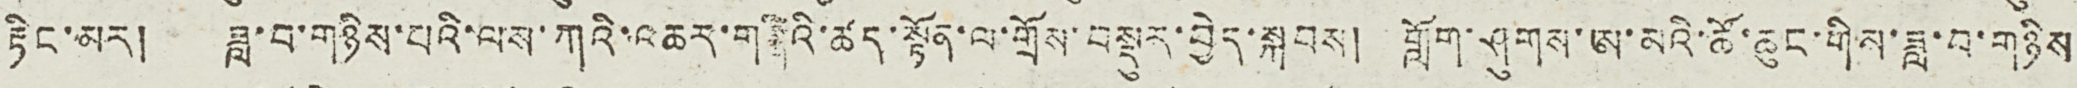རྟིང་མར། ཟླ་བ་གཉིས་པའི་ལས་ཀའི་འཆར་གཤིའི་ཚད་སྟོན་ལ་གྲོས་བསྡུར་བྱེད་སྐབས། གློག་ཤུགས་ཨ་མའི་ཚོ་ཆུང་གིས་ཟླ་བ་གཉིས
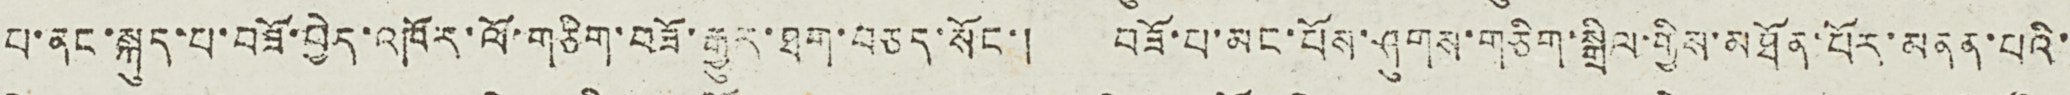པ་ནང་སྐུད་པ་བཟོ་བྱེད་འཁོར་ལོ་གཅིག་བཟོ་རྒྱུར་ཐག་བཅད་སོང་། བཟོ་པ་མང་པོས་ཤུགས་གཅིག་སྒྲིལ་གྱིས་མཐོན་པོར་མནན་པའི་
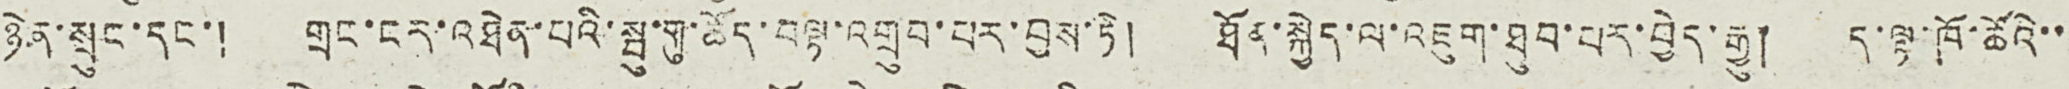ཉེན་སྲུང་དང་། གྲང་ངར་འཐེན་པའི་སྤུ་གུ་ཚོད་བལྟ་འགྲུབ་པར་བྱས་ཏེ། ཐོན་སྐྱེད་ལ་འཇུག་ཐུབ་པར་བྱེད་རྒྱུ། ད་ལྟ་ཁོ་ཚོའི་་
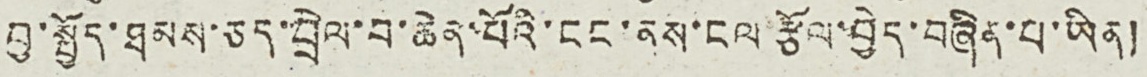བྱ་སྤྱོད་ཐམས་ཅད་བྲེལ་བ་ཆེན་པོའི་ངང་ནས་ངལ་རྩོལ་བྱེད་བཞིན་པ་ཡིན།
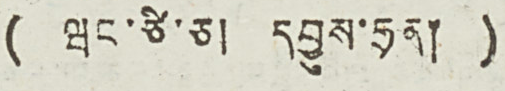( ཝང་ཙི་ཅ། དབྱུས་ཧྲན། )
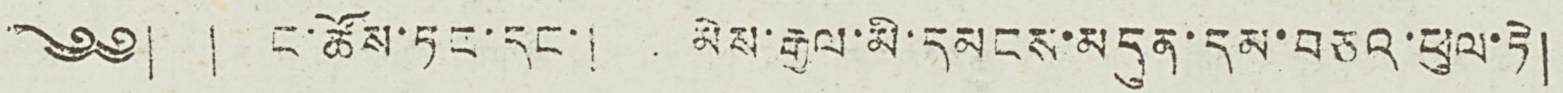༄༅། ། ང་ཚོས་ཏང་དང་། མེས་རྒྱལ་མི་དམངས་མདུན་དམ་བཅའ་ཕུལ་ཏེ།
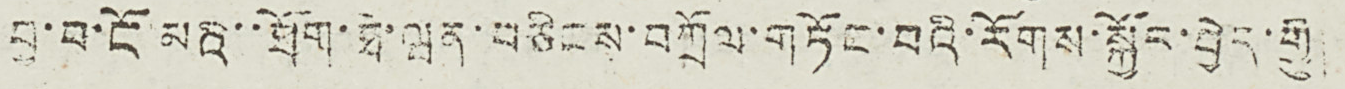བུ་བ་ངོ་མའི་་ཐོག་ཐེ་ཝན་བཅིངས་བཀྲོལ་གཏོང་བའི་རོགས་སྐྱོང་བྱེད་རྒྱུ།
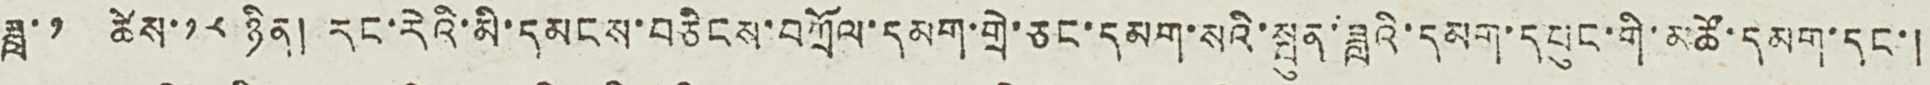ཟླ་ ༡ ཚེས་ ༡༨ ཉིན། རང་རེའི་མི་དམངས་བཅིངས་བཀྲོལ་དམག་གྲེ་ཅང་དམག་སའི་སྤུན་ཟླའི་དམག་དཔུང་གི་མཚོ་དམག་དང་།
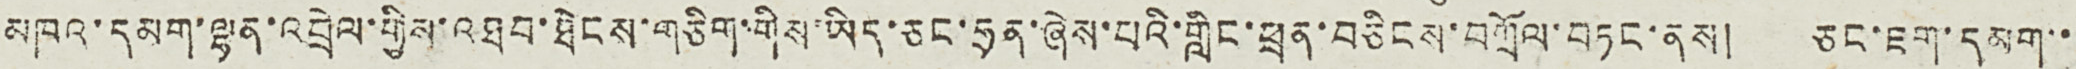མཁའ་དམག་ལྷན་འབྲེལ་གྱིས་འཐབ་ཐེངས་གཅིག་གིས་ཡིད་ཅང་ཧྲན་ཞེས་པའི་གླིང་ཕྲན་བཅིངས་བཀྲོལ་བཏང་ནས། ཅང་ཇག་དམག་་
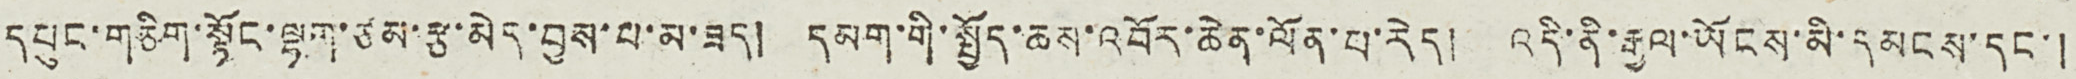དཔུང་གཅིག་སྟོང་ལྷག་ཙམ་རྩ་མེད་བྱས་པ་མ་ཟད། དམག་གི་སྤྱོད་ཆས་འབོར་ཆེན་ལོན་པ་རེད། འདི་ནི་རྒྱལ་ཡོངས་མི་དམངས་དང་།
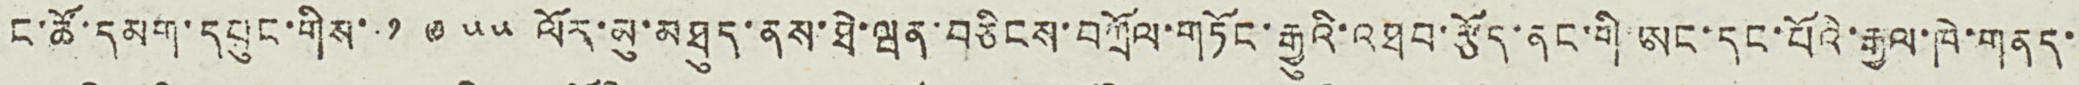ང་ཚོ་དམག་དཔུང་གིས་ ༡ ༩ ༥ ༥ ལོར་མུ་མཐུད་ནས་ཐེ་ཝན་བཅིངས་བཀྲོལ་གཏོང་རྒྱུའི་འཐབ་རྩོད་ནང་གི་ཨང་དང་པོའི་རྒྱལ་ཁེ་གནད་
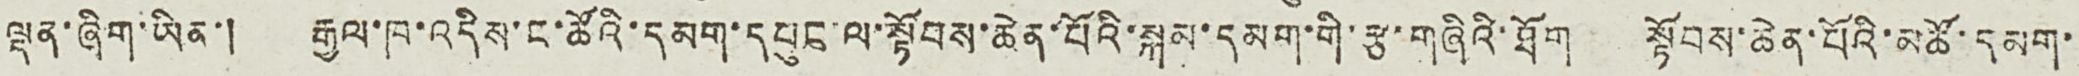ལྡན་ཞིག་ཡིན་། རྒྱལ་ཁ་འདིས་ང་ཚོའི་དམག་དཔུང་ལ་སྟོབས་ཆེན་པོའི་སྐམ་དམག་གི་རྩ་གཞིའི་ཐོག སྟོབས་ཆེན་པོའི་མཚོ་དམག་
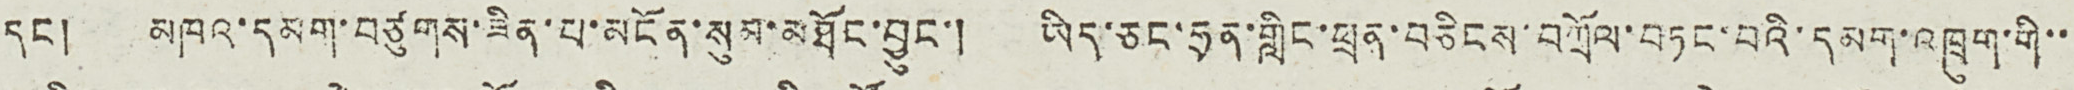དང ། མཁའ་དམག་བཙུགས་ཟིན་པ་མངོན་སུམ་མཐོང་བྱུང་། ཡིད་ཅང་ཧྲན་གླིང་ཕྲན་བཅིངས་བཀྲོལ་བཏང་བའི་དམག་འཁྲུག་གི་་
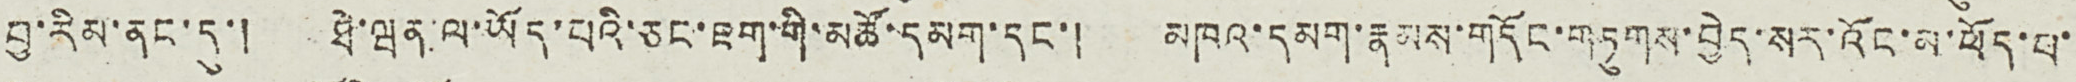བྱ་རིམ་ནང་དུ་། ཐེ་ཝན་ལ་ཡོད་པའི་ཅང་ཇག་གི་མཚོ་དམག་དང་། མཁའ་དམག་རྣམས་གདོང་གཏུགས་བྱེད་སར་འོང་མ་ཕོད་པ་
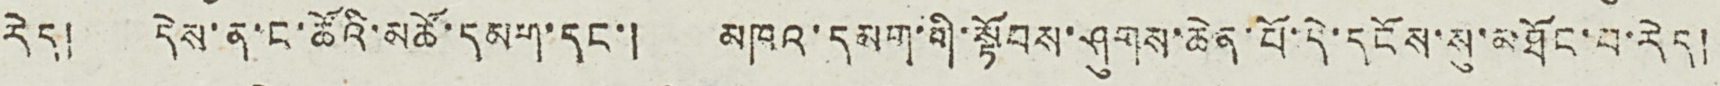རེད། དེས་ན་ང་ཚོའི་མཚོ་དམག་དང་། མཁའ་དམག་གི་སྟོབས་ཤུགས་ཆེན་པོ་དེ་དངོས་སུ་མཐོང་བ་རེད།
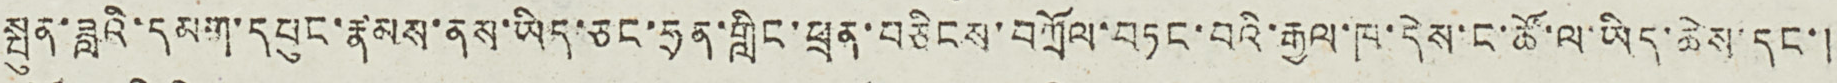སྤུན་ཟླའི་དམག་དཔུང་རྣམས་ནས་ཡིད་ཅང་ཧྲན་གླིང་ཕྲན་བཅིངས་བཀྲོལ་བཏང་བའི་རྒྱལ་ཁ་དེས་ང་ཚོ་ལ་ཡིད་ཆེས་དང་།
